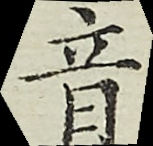音
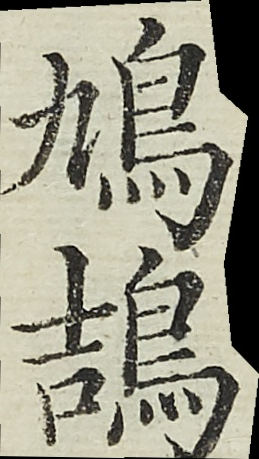鳩鴶
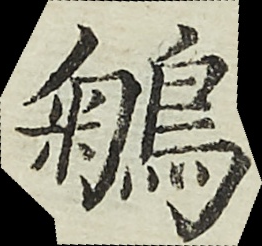鵴
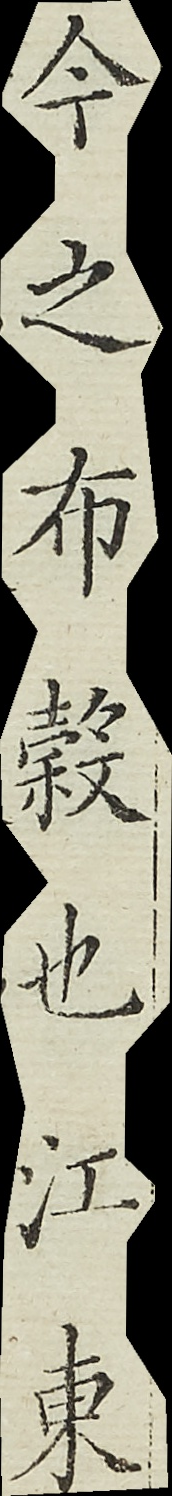今之布穀也江東
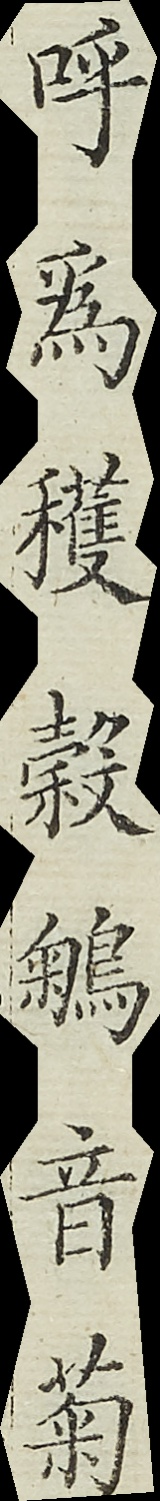呼為穫穀鵴音菊
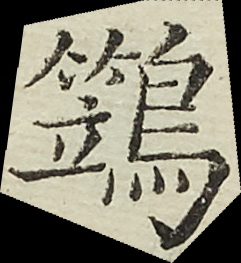鷑
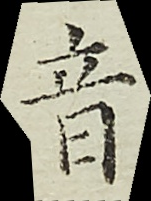音
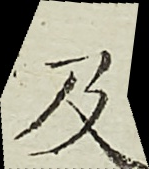及
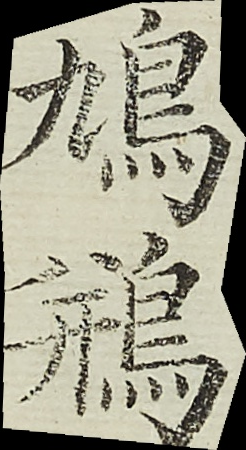鳩鵧
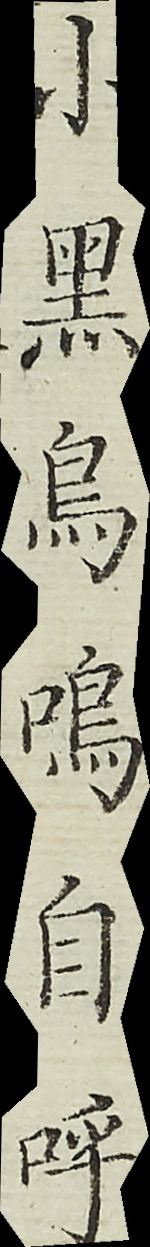小黑鳥鳴自呼
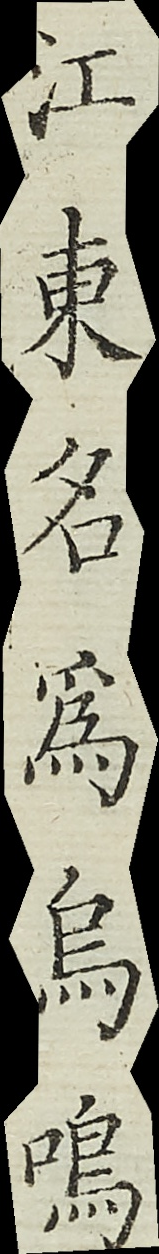江東名為烏鳴
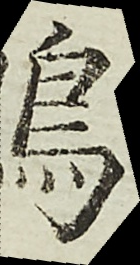鵙
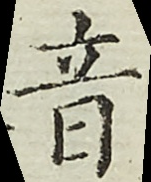音
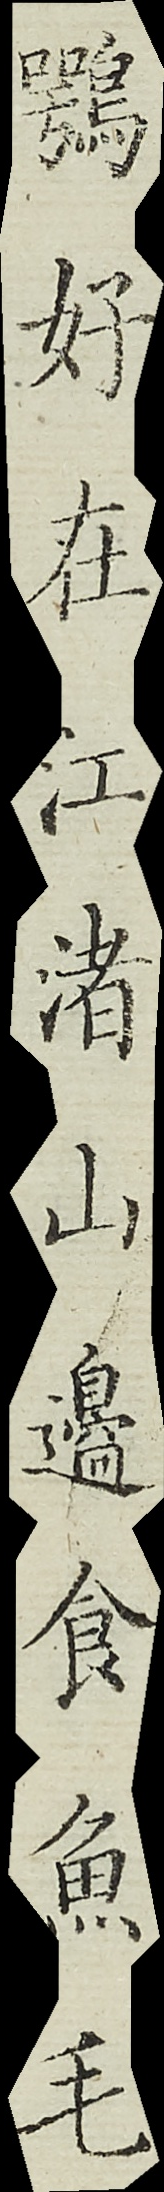鶚好在江渚山邊食魚毛
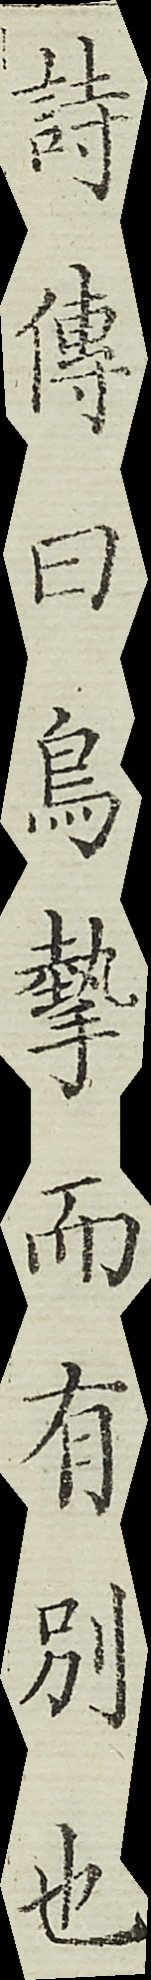詩傳曰鳥摯而有別也
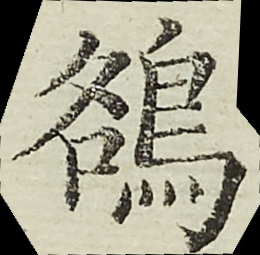鵅
